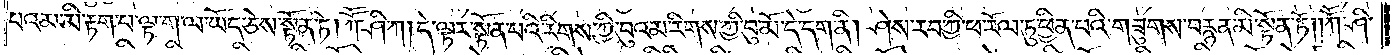པའམ་མི་རྟག་པ་ལྟ་ག་ལ་ཡོད་ཅེས་སྟོན་ཏེ། ཀཽ་ཤི་ཀ། དེ་ལྟར་སྟོན་པའི་རིགས་ཀྱི་བུའམ་རིགས་ཀྱི་བུ་མོ་དེ་དག་ནི། ཤེས་རབ་ཀྱི་ཕ་རོལ་ཏུ་ཕྱིན་པའི་གཟུགས་བརྙན་མི་སྟོན་ཏོ། ཀཽ་ཤི་
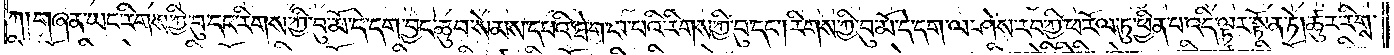ཀ། གཞན་ཡང་རིགས་ཀྱི་བུ་དང་རིགས་ཀྱི་བུ་མོ་དེ་དག་བྱང་ཆུབ་སེམས་དཔའི་ཐེག་པ་པའི་རིགས་ཀྱི་བུ་དང༌། རིགས་ཀྱི་བུ་མོ་དེ་དག་ལ་ཤེས་རབ་ཀྱི་ཕ་རོལ་ཏུ་ཕྱིན་པ་འདི་ལྟར་སྟོན་ཏེ། ཚུར་རིགས་
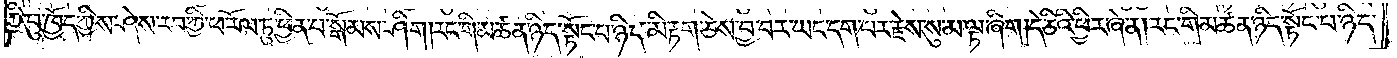ཀྱི་བུ་ཁྱོད་ཀྱིས་ཤེས་རབ་ཀྱི་ཕ་རོལ་ཏུ་ཕྱིན་པ་སྒོམས་ཤིག །རང་གི་མཚན་ཉིད་སྟོང་པ་ཉིད་མི་རྟག་ཅེས་བྱ་བར་ཡང་དག་པར་རྗེས་སུ་མ་ལྟ་ཞིག །དེ་ཅིའི་ཕྱིར་ཞེ་ན། རང་གི་མཚན་ཉིད་སྟོང་པ་ཉིད་
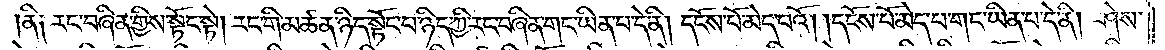ནི༑ རང་བཞིན་གྱིས་སྟོང་སྟེ། རང་གི་མཚན་ཉིད་སྟོང་པ་ཉིད་ཀྱི་རང་བཞིན་གང་ཡིན་པ་དེ་ནི། དངོས་པོ་མེད་པའོ། །དངོས་པོ་མེད་པ་གང་ཡིན་པ་དེ་ནི། ཤེས་
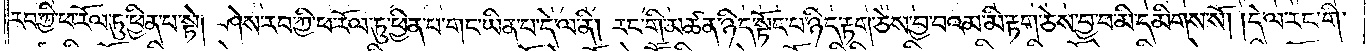རབ་ཀྱི་ཕ་རོལ་ཏུ་ཕྱིན་པ་སྟེ། ཤེས་རབ་ཀྱི་ཕ་རོལ་ཏུ་ཕྱིན་པ་གང་ཡིན་པ་དེ་ལ་ནི། རང་གི་མཚན་ཉིད་སྟོང་པ་ཉིད་རྟག་ཅེས་བྱ་བའམ་མི་རྟག་ཅེས་བྱ་བ་མི་དམིགས་སོ། །དེ་ལ་རང་གི་
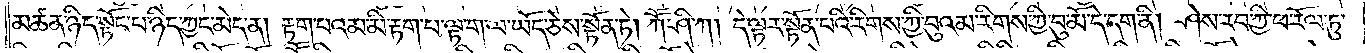མཚན་ཉིད་སྟོང་པ་ཉིད་ཀྱང་མེད་ན། རྟག་པའམ་མི་རྟག་བ་ལྟ་ག་ལ་ཡོད་ཅེས་སྟོན་ཏེ། ཀཽ་ཤི་ཀ། དེ་ལྟར་སྟོན་པའི་རིགས་ཀྱི་བུའམ་རིགས་ཀྱི་བུ་མོ་དེ་དག་ནི། ཤེས་རབ་ཀྱི་ཕ་རོལ་ཏུ་
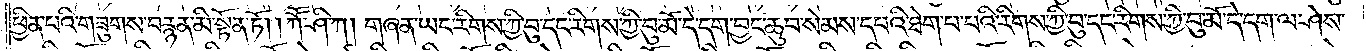ཕྱིན་པའི་གཟུགས་བརྙན་མི་སྟོན་ཏོ། །ཀཽ་ཤི་ཀ། གཞན་ཡང་རིགས་ཀྱི་བུ་དང་རིགས་ཀྱི་བུ་མོ་དེ་དག་བྱང་ཆུབ་སེམས་དཔའི་ཐེག་པ་པའི་རིགས་ཀྱི་བུ་དང་རིགས་ཀྱི་བུ་མོ་དེ་དག་ལ་ཤེས་
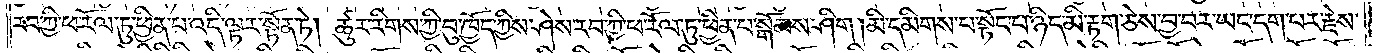རབ་ཀྱི་ཕ་རོལ་ཏུ་ཕྱིན་པ་འདི་ལྟར་སྟོན་ཏེ། ཚུར་རིགས་ཀྱི་བུ་ཁྱོད་ཀྱིས་ཤེས་རབ་ཀྱི་ཕ་རོལ་ཏུ་ཕྱིན་པ་སྒོམས་ཤིག །མི་དམིགས་པ་སྟོང་པ་ཉིད་མི་རྟག་ཅེས་བྱ་བར་ཡང་དག་པར་རྗེས་
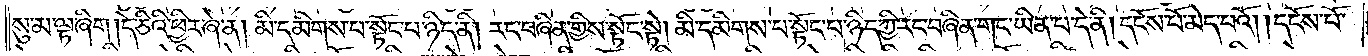སུ་མ་ལྟ་ཞིག །དེ་ཅིའི་ཕྱིར་ཞེ་ན། མི་དམིགས་པ་སྟོང་པ་ཉིད་ནི། རང་བཞིན་གྱིས་སྟོང་སྟེ། མི་དམིགས་པ་སྟོང་པ་ཉིད་ཀྱི་རང་བཞིན་གང་ཡིན་པ་དེ་ནི། དངོས་པོ་མེད་པའོ། །དངོས་པོ་
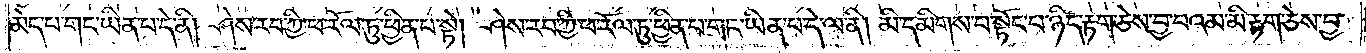མེད་པ་གང་ཡིན་པ་དེ་ནི། ཤེས་རབ་ཀྱི་ཕ་རོལ་ཏུ་ཕྱིན་པ་སྟེ། ཤེས་རབ་ཀྱི་ཕ་རོལ་ཏུ་ཕྱིན་པ་གང་ཡིན་པ་དེ་ལ་ནི། མི་དམིགས་པ་སྟོང་པ་ཉིད་རྟག་ཅེས་བྱ་བའམ་མི་རྟག་ཅེས་བྱ་
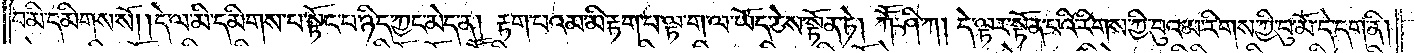བ་མི་དམིགས་སོ། དེ་ལ་མི་དམིགས་པ་སྟོང་པ་ཉིད་ཀྱང་མེད་ན། རྟག་པའམ་མི་རྟག་པ་ལྟ་ག་ལ་ཡོད་ཅེས་སྟོན་ཏེ། ཀཽ་ཤི་ཀ། དེ་ལྟར་སྟོན་པའི་རིགས་ཀྱི་བུའམ་རིགས་ཀྱི་བུ་མོ་དེ་དག་ནི།
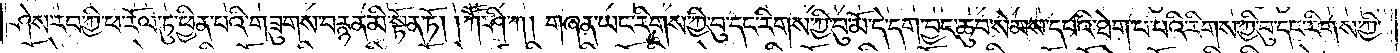ཤེས་རབ་ཀྱི་ཕ་རོལ་ཏུ་ཕྱིན་པའི་གཟུགས་བརྙན་མི་སྟོན་ཏོ། །ཀཽ་ཤི་ཀ། གཞན་ཡང་རིགས་ཀྱི་བུ་དང་རིགས་ཀྱི་བུ་མོ་དེ་དག་བྱང་ཆུབ་སེམས་དཔའི་ཐེག་པ་པའི་རིགས་ཀྱི་བུ་དང་རིགས་ཀྱི་
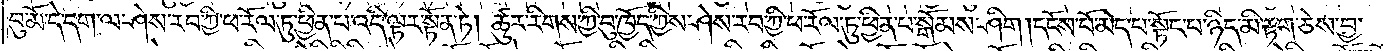བུ་མོ་དེ་དག་ལ་ཤེས་རབ་ཀྱི་ཕ་རོལ་ཏུ་ཕྱིན་པ་འདི་ལྟར་སྟོན་ཏེ། ཚུར་རིགས་ཀྱི་བུ་ཁྱོད་ཀྱིས་ཤེས་རབ་ཀྱི་ཕ་རོལ་ཏུ་ཕྱིན་པ་སྒོམས་ཤིག །དངོས་པོ་མེད་པ་སྟོང་པ་ཉིད་མི་རྟག་ཅེས་བྱ་
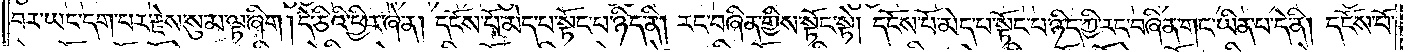བར་ཡང་དག་པར་རྗེས་སུ་མ་ལྟ་ཞིག །དེ་ཅིའི་ཕྱིར་ཞེ་ན། དངོས་པོ་མེད་པ་སྟོང་པ་ཉིད་ནི། རང་བཞིན་གྱིས་སྟོང་སྟེ། དངོས་པོ་མེད་པ་སྟོང་པ་ཉིད་ཀྱི་རང་བཞིན་གང་ཡིན་པ་དེ་ནི། དངོས་པོ་
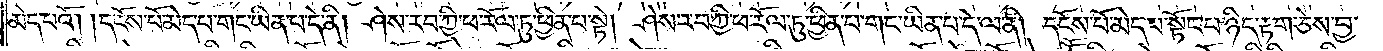མེད་པའོ། །དངོས་པོ་མེད་པ་གང་ཡིན་པ་དེ་ནི། ཤེས་རབ་ཀྱི་ཕ་རོལ་ཏུ་ཕྱིན་པ་སྟེ། ཤེས་རབ་ཀྱི་ཕ་རོལ་ཏུ་ཕྱིན་པ་གང་ཡིན་པ་དེ་ལ་ནི། དངོས་པོ་མེད་པ་སྟོང་པ་ཉིད་རྟག་ཅེས་བྱ་
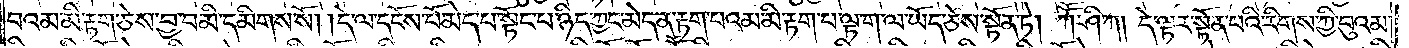བའམ་མི་རྟག་ཅེས་བྱ་བ་མི་དམིགས་སོ། །དེ་ལ་དངོས་པོ་མེད་པ་སྟོང་པ་ཉིད་ཀྱང་མེད་ན་རྟག་པའམ་མི་རྟག་པ་ལྟ་ག་ལ་ཡོད་ཅེས་སྟོན་ཏེ། ཀཽ་ཤི་ཀ། དེ་ལྟར་སྟོན་པའི་རིགས་ཀྱི་བུའམ་
